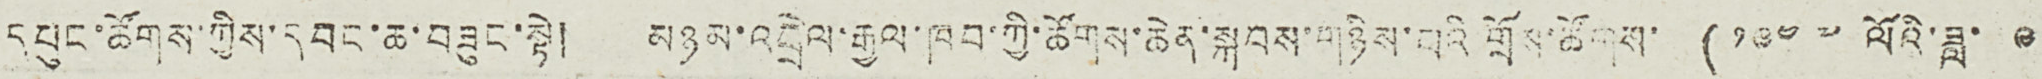དཔུང་ཚོགས་ཀྱི་དབང་ཆ་བཟུང་སྟེ། མཉམ་འབྲེལ་རྒྱལ་ཁབ་ཀྱི་ཚོགས་ཆེན་སྐབས་གཉིས་པའི་གྲོས་ཚོགས་ ( ༡༩༤༧ ལོའི་ཟླ་ ༩
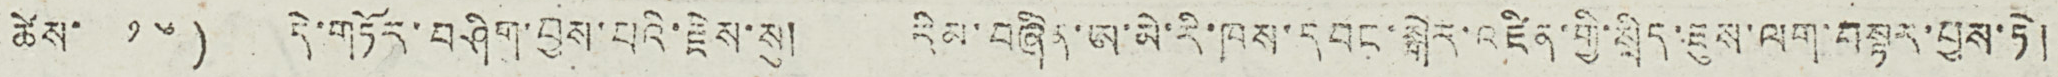ཚེས་ ༡༦) དེ་གཏོར་བཤིག་བྱས་པའི་རྗེས་སུ། རིམ་བཞིན་ཨ་མེ་རི་ཁས་དབང་སྒེར་འཛིན་གྱི་སྲིད་ཇུས་ལག་བསྟར་བྱས་ཏེ།
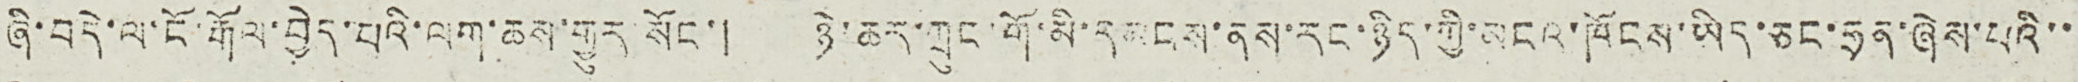ཞི་བདེ་ལ་ངོ་རྒོལ་བྱེད་པའི་ལག་ཆས་གྱུར་སོང་། ཉེ་ཆར་ཀྲུང་གོ་མི་དམངས་ནས་རང་ཉིད་ཀྱི་མངའ་ཁོངས་ཡིད་ཅང་ཧྲན་ཞེས་པའི་་
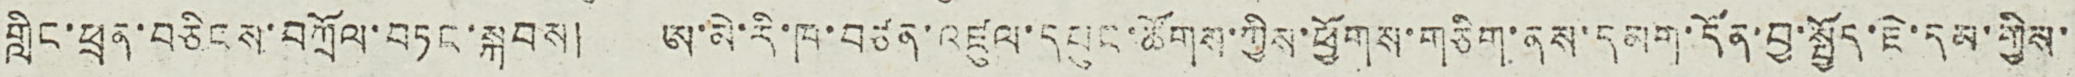གླིང་ཕྲན་བཅིངས་བཀྲོལ་བཏང་སྐབས། ཨ་མེ་རི་ཁ་བཙན་འཛུལ་དཔུང་ཚོགས་ཀྱིས་ཕྱོགས་གཅིག་ནས་དམག་དོན་བྱ་སྤྱོད་ཇེ་དམ་གྱིས་
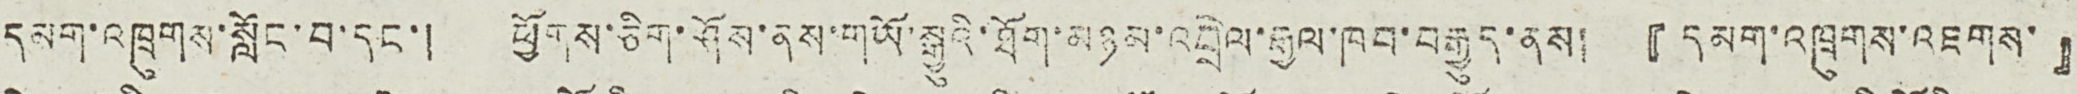དམག་འཁྲུགས་སློང་བ་དང་། ཕྱོགས་ཅིག་ཤོས་ནས་གཡོ་སྒྱུའི་ཐོག་མཉམ་འབྲེལ་རྒྱལ་ཁབ་བརྒྱུད་ནས། 『དམག་འཁྲུགས་འཇགས་』
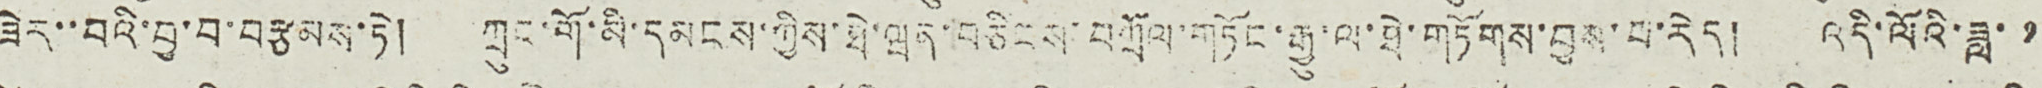ཟེར་་བའི་བྱ་བ་བརྩམས་ཏེ། ཀྲུང་གོ་མི་དམངས་ཀྱིས་ཐེ་ཝན་བཅིངས་བཀྲོལ་གཏོང་རྒྱུ་ལ་ཐེ་གཏོགས་བྱས་པ་རེད། འདི་ལོའི་ཟླ་ ༡
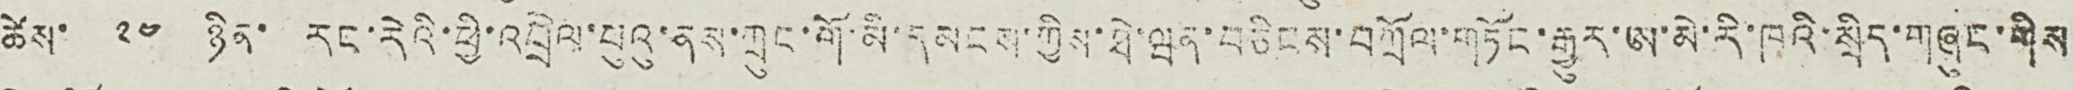ཚེས་ ༢༤ ཉིན་ རང་རེའི་ཕྱི་འབྲེལ་པུའུ་ནས་ཀྲུང་གོ་མི་དམངས་ཀྱིས་ཐེ་ཝན་བཅིངས་བཀྲོལ་གཏོང་རྒྱུར་ཨ་མེ་རི་ཁའི་སྲིད་གཞུང་གིས
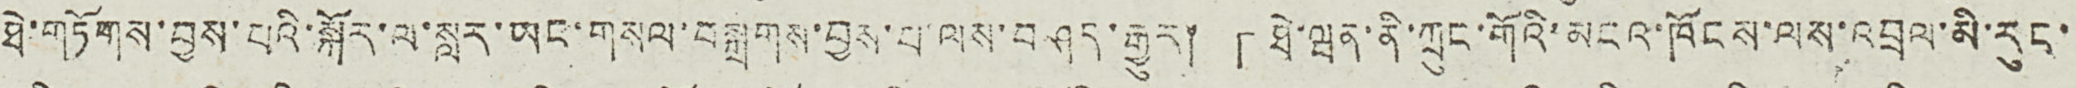ཐེ་གཏོགས་བྱས་པའི་སྐོར་ལ་སླར་ཡང་གསལ་བསྒྲགས་བྱས་པ་ལས་བཤད་རྒྱུར། 「ཐེ་ཝན་ནི་ཀྲུང་གོའི་མངའ་ཁོངས་ལས་འབྲལ་མི་རུང་
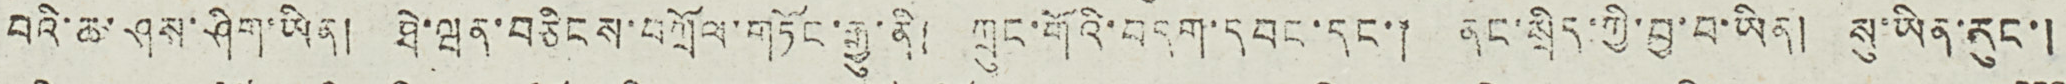བའི་ཆ་ཤས་ཤིག་ཡིན། ཐེ་ཝན་བཅིངས་བཀྲོལ་གཏོང་རྒྱུ་ནི། ཀྲུང་གོའི་བདག་དབང་དང་། ནང་སྲིད་ཀྱི་བྱ་བ་ཡིན། སུ་ཡིན་རུང་།
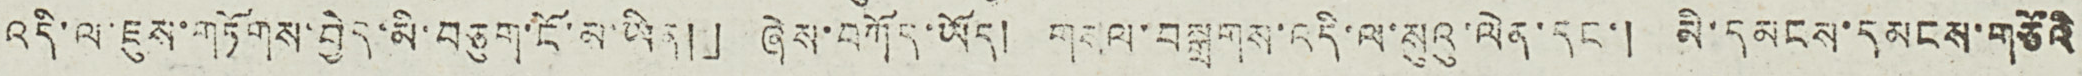འདི་ལ་ཇུས་གཏོགས་བྱེད་མི་བཅུག་ངོ་མ་ཡིན།」ཞེས་བཀོད་ཡོད། བསལ་བསྒྲགས་འདི་ལ་སུའུ་ལེན་དང་། མི་དམངས་དམངས་གཙོའི
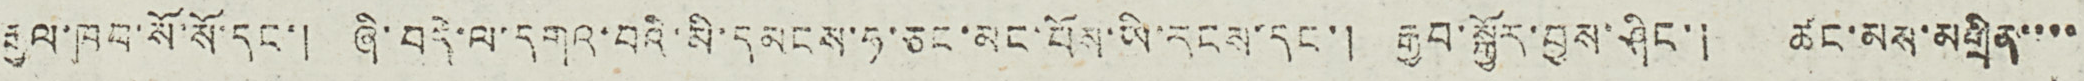རྒྱལ་ཁབ་སོ་སོ་དང་། ཞི་བདེ་ལ་དགའ་བའི་མི་དམངས་ཧ་ཅང་མང་པོས་ཡི་རངས་དང་། རྒྱབ་སྐྱོར་བྱས་ཤིང་། ཚང་མས་མགྲིན་་་་
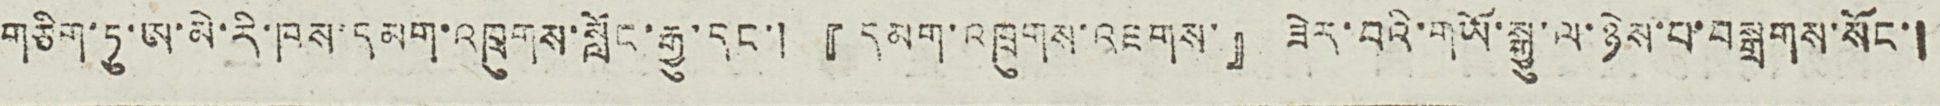གཅིག་ཏུ་ཨ་མེ་རི་ཁས་དམག་འཁྲུགས་སློང་རྒྱུ་དང་། 『དམག་འཁྲུགས་འཇགས་』ཟེར་བའི་གཡོ་སྒྱུ་ལ་ཉེས་བ་བསྒྲགས་སོང་།
